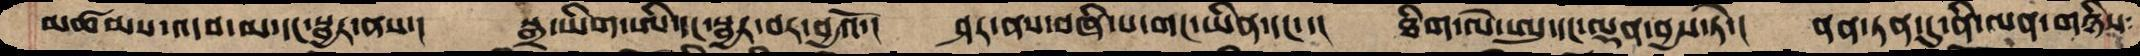མཚམས་འདབ་མ་དང་སྦྱར་ནས་།  སྒྲ་ཡིག་ཨི་དང་སྦྱར་བར་བྱའོ་།  ཤར་ནས་བཞི་པ་གང་ཡིན་དང་་།  ཐིག་ལེ་ཨུ་དང་ལྡན་བྱས་ཏེ་།  ནན་ཏན་དུ་ནི་ལན་གཉིས་
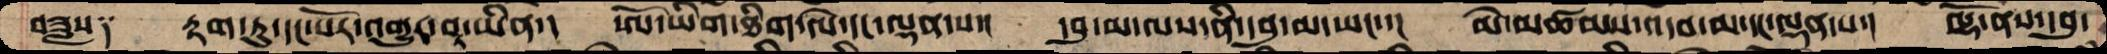བཟླས༑  རྟག་ཏུ་དང་པོར་འགྱུར་བར་ཡིན་།  ཨོ་ཡིག་ཐིག་ལེ་དང་ལྡན་ས་། དབུ་མ་ལས་ནི་དབུ་མ་ཡང་། མེ་མཚམས་འདབ་མ་དང་ལྡན་པ་། ལྷོ་ནས་དབུ་
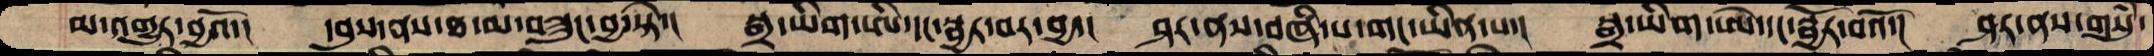མ་འགྱུར་བྱའོ་།  དབུས་ནས་ཐ་མ་བཟུང་བྱ་སྟེ་།  སྒྲ་ཡིག་ཨི་དང་སྦྱར་བར་བྱ་།  ཤར་ནས་བཞི་པ་གང་ཡིན་པ་།  སྒྲ་ཡིག་ཨེ་དང་སྦྱོར་བའོ་།  ཤར་ནས་གསུཾ་
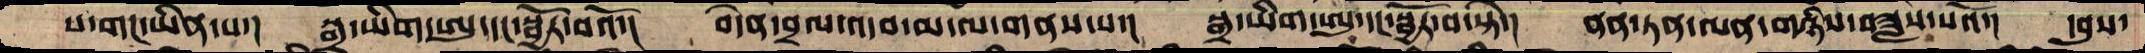པ་གང་ཡིན་པ་།  སྒྲ་ཡིག་ཨུ་དང་སྦྱོར་བའོ་།  བདེན་བྲལ་འདབ་མ་ལ་གནས་པ་།  སྒྲ་ཡིག་ཨུ་དང་སྦྱོར་བ་སྟེ་།།  ནན་ཏན་ལན་གཉིས་བཟླས་པའོ་།  དབུས་
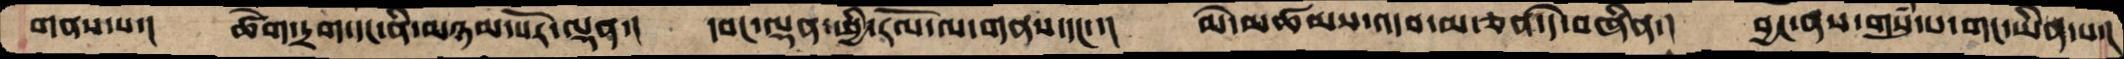གནས་པ་།  ཚེག་དྲག་དང་ནི་མཉམ་པོར་ལྡན་།  དབང་ལྡན་ཕྱི་རོལ་ལ་གནས་དང་་།  མེ་མཚམས་འདབ་མ་ཅན་དེ་བཞིན་།  བྱང་ནས་གསུཾ་པ་གང་ཡིན་པ་།
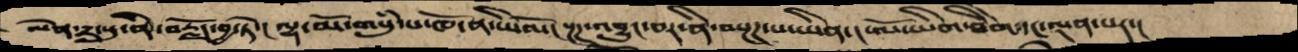ལེན་དྲ་སུ་ནི་བརྗོད་བྱ་ཏེ་། ལྷ་མོ་གསུཾ་པ་ཁོ་ནི་ཡོལ། སྔཌ་འབྱུང་བར་ནི་བསྔཌ་པ་ཡིན་། ཨོ་ཡིག་ཐིགེ་དང་ལྡན་པར་།
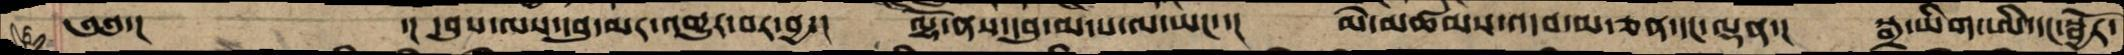༄༅་།      ་། དབུས་ལས་དབུ་མར་འགྱུར་བར་བྱ་།  ལྷོ་ནས་དབུ་མ་པ་ལ་ཡང་་། མེ་མཚམས་འདབ་མ་ཅན་དང་ལྡན་། སྒྲ་ཡིག་ཨི་དང་སྦྱོར་
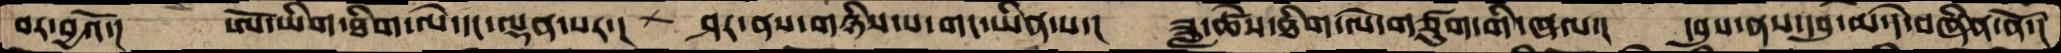བར་བྱའོ་།  ཨོ་ཡིག་ཐིག་ལེ་དང་ལྡན་པར་།  ཤར་ནས་གཉིས་པ་གང་ཡིན་པ་།  ཟླ་ཚེས་ཐིག་ལེ་གཙུག་གི་ཞལ་། དབུས་ནས་དབུ་མ་དེ་བཞིན་ནོ་།
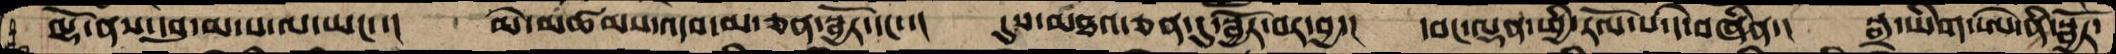ལྷོ་ནས་དབུ་མ་པ་ལ་ཡང་་། མེ་མཚམས་འདབ་མ་ཅན་སྦྱོར་དང་་། དུས་མཐའ་ཅན་དུ་སྦྱོར་བར་བྱ་། དབང་ལྡན་ཕྱི་རོལ་པ་དེ་བཞིན་། སྒྲ་ཡིག་ཨེ་ནི་སྦྱོར་
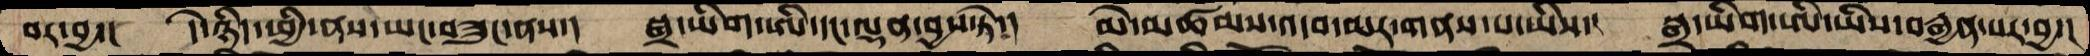བར་བྱ་།  དེ་ཉིད་ཕྱི་ནས་ཡང་བཟུང་ནས་།  སྒྲ་ཡིག་ཨི་དང་ལྡན་བྱས་ཏེ་།  མེ་མཚམས་འདབ་མར་གནས་པ་ཡིས་།  སྒྲ་ཡིག་ཨི་ཡིས་བརྒྱན་པར་བྱ་།
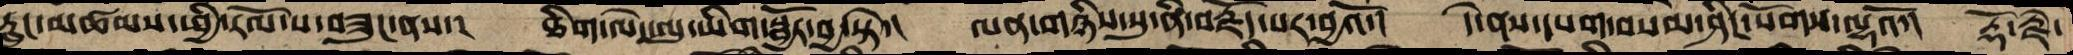རླུང་མཚམས་ཕྱི་རོལ་ས་བཟུང་ནས་།  ཐིག་ལེ་ཨུ་ཡིག་སྦྱོར་བྱ་སྟེ་།  ལན་གཉིས་སུ་ནི་བརྗོད་པར་བྱའོ་།  དེ་ནས་དཔག་བསམ་ཤིང་སོགས་ལྷའོ་།  རྡོ་རྗེ་
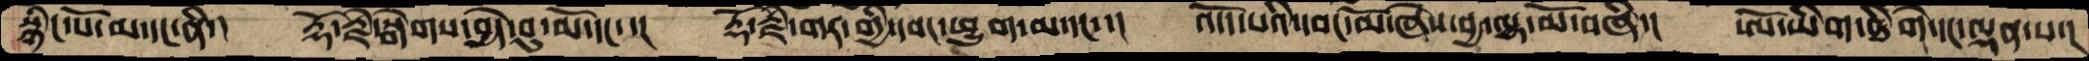སྙིང་པོ་མ་དང་ནི་།  རྡོ་རྗེ་སྒེགས་བྱེད་བུ་མོ་དང་་།  རྡོ་རྗེ་གར་གྱི་དབང་ཕྱུག་མ་དང་་།  འདོད་པའི་དབང་མོ་ཞེས་བྱ་ལྷ་མོ་བཞི་།  ཨོ་ཡིག་ཐིག་ལེ་དང་ལྡན་པ་།
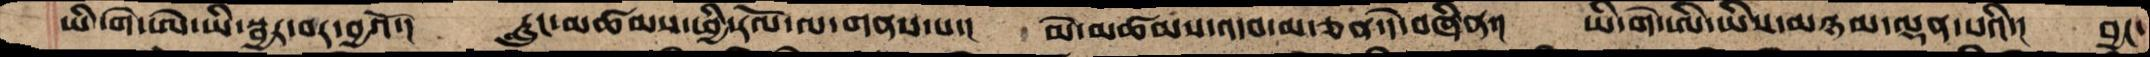ཡི་གེ་ཨེ་ཡི་སྦྱར་བར་བྱའོ་།  རླུང་མཚམས་ཕྱི་རོལ་ལ་གནས་པ་།  མེ་མཚམས་འདབ་མ་ཅན་དེ་བཞིན་།  ཡི་གེ་ཨི་ཡིས་མཉམ་ལྡན་པའི་།  བྱང་
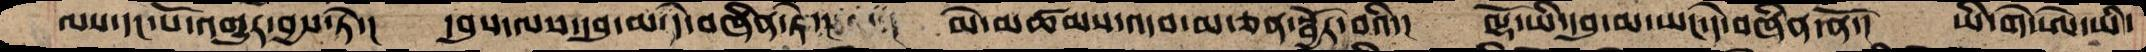ལས་དང་པོ་འགྱུར་བྱས་ཏེ་།  དབུས་ལས་དབུ་མ་དེ་བཞིན་ཏེ་།  མེ་མཚམས་འདབ་མ་ཅན་སྦྱོར་བའི་།  ལྷོ་ཡི་དབུ་མ་ཡང་དེ་བཞིན་ནོ་།  ཡི་གེ་ཨེ་ཡི་
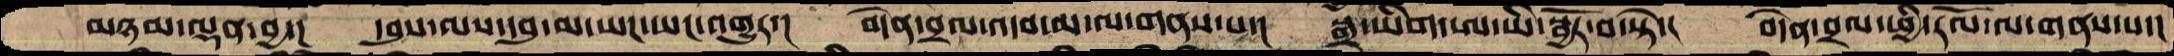མཉམ་ལྡན་བྱ་།  དབུས་ལས་དབུ་མ་ཡང་ཡང་འགྱུར་།  བདེན་བྲལ་འདབ་མ་ལ་གནས་པ་།  སྒྲ་ཡིག་ཨ་ཡི་སྦྱོར་བ་སྟེ་།  བདེན་བྲལ་ཕྱི་རོལ་ལ་གནས་པ་།
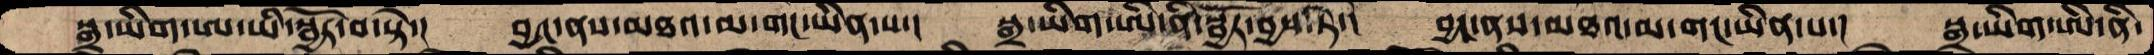སྒྲ་ཡིག་ཨ་ཡི་སྦྱོར་བ་སྟེ་།  བྱང་ནས་མཐའ་མ་གང་ཡིན་པ་།  སྒྲ་ཡིག་ཨི་ནི་སྦྱོར་བྱས་ཏེ་།  བྱང་ནས་མཐའ་མ་གང་ཡིན་པ་།  སྒྲ་ཡིག་ཨི་ནི་
